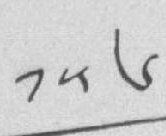༡༥༦
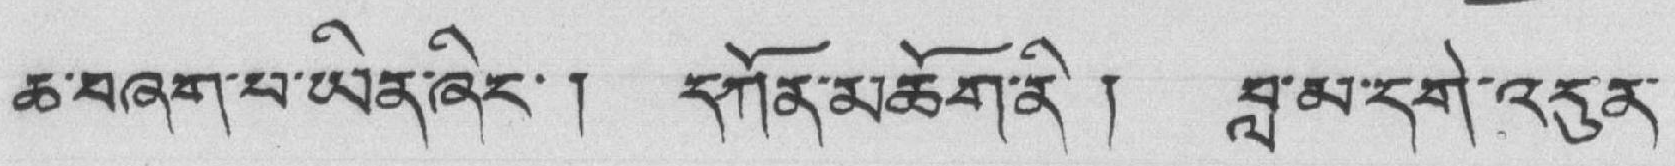ཆ་བཞག་པ་ཡིན་ཞིང་། དཀོན་མཆོག་ནི ། བླ་མ་དགེ་འདུན་
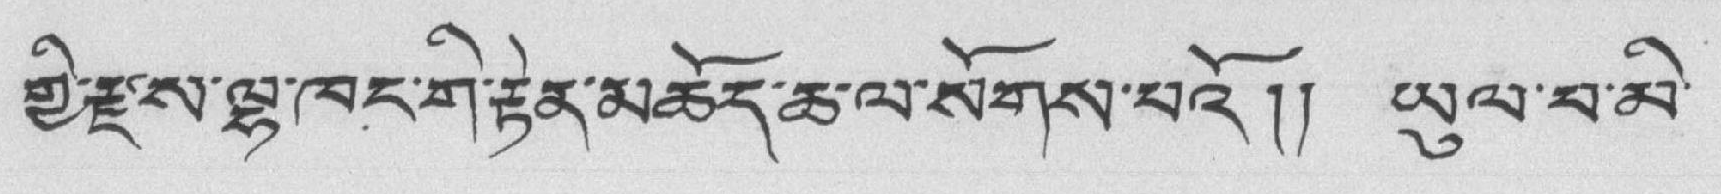གྱི་རྫས་ལྷ་ཁང་གི་རྟེན་མཆོད་ཆ་ལ་སོགས་པའོ།། ཡུལ་པ་མ་
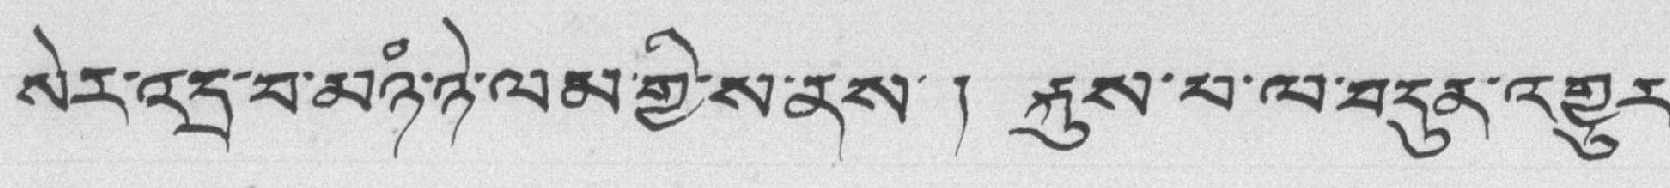སེར་འདྲ་བ་མཉཾ་ཉེ་ལམ་གྱི་ས་ནས་ ། རྐུས་པ་ལ་བདུན་འགྱུར་
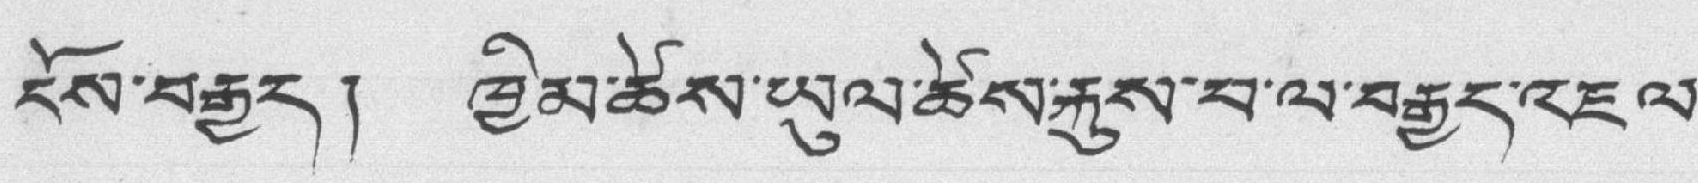ངོས་བརྒྱད། ཁྱིམ་ཚེས་ཡུལ་ཚེས་རྐུས་པ་ལ་བརྒྱད་འཇལ་
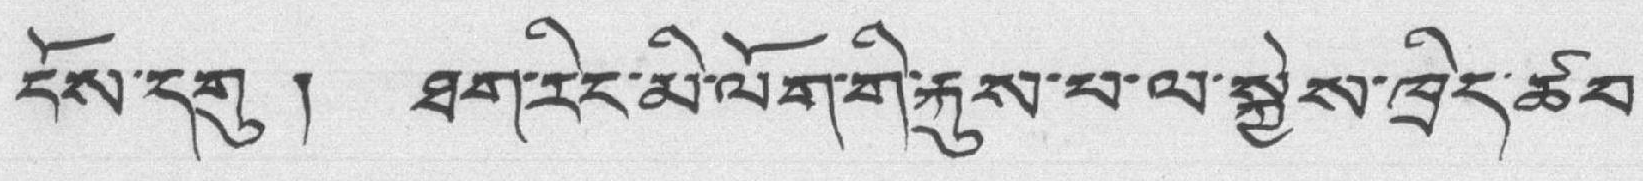ངོས་དགུ ། ཐག་རིང་མི་ལོག་གི་རྐུས་པ་ལ་སྐྱེས་ཁྲིད་ཚབ་
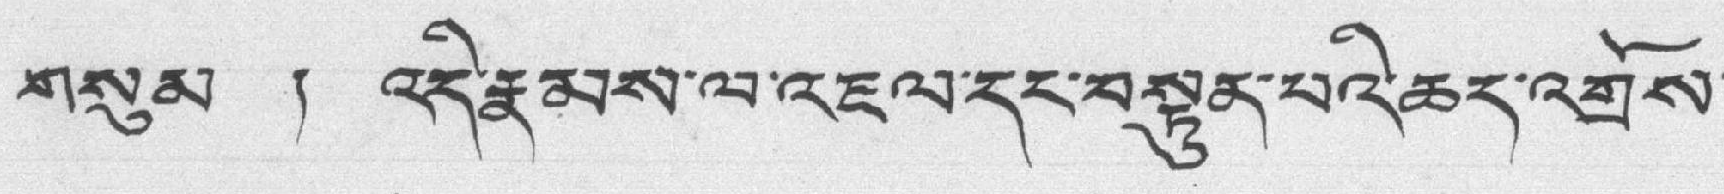གསུམ ། འདི་རྣམས་ལ་འཇལ་དང་བསྟུན་པའི་ཆད་འགྲོས་
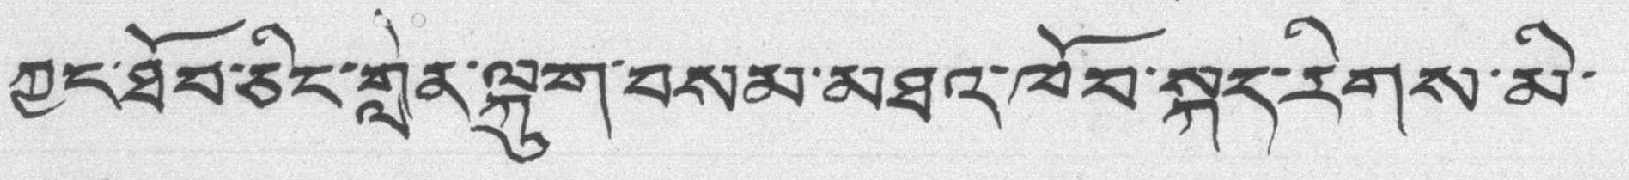ཀྱང་ཐོབ་ཅིང་གླེན་ལྐུག་བསམ་མཐའ་ཁོབ་སྐད་རིགས་མི་
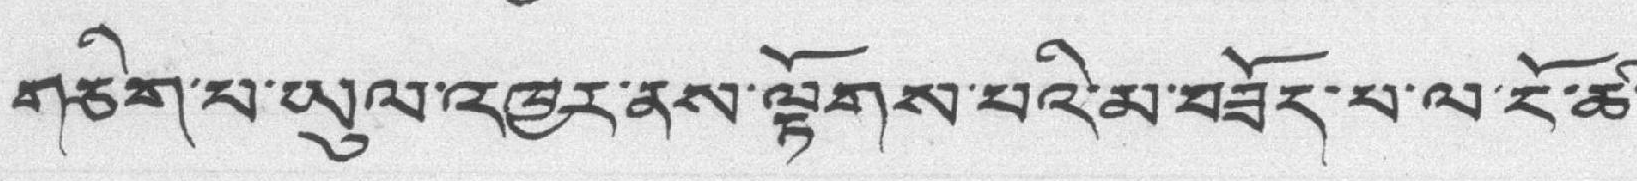གཅིག་པ་ཡུལ་འཁྱར་ནས་ལྟོགས་པའི་མ་བཟོད་པ་ལ་ངོ་ཚ་
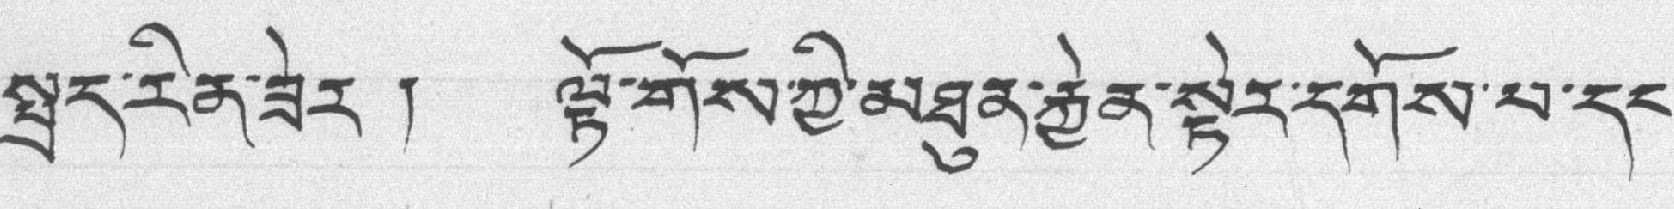སྤྲད་རིན་ཟེར ། ལྟོ་གོས་ཀྱི་མཐུན་རྐྱེན་སྟེར་དགོས་པ་དང་
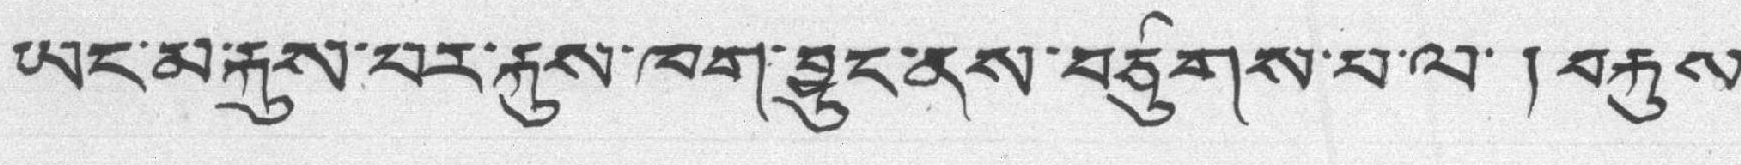ཡང་མ་རྐུས་པར་རྐུས་ཁག་བྱུང་ནས་བཙུགས་པ་ལ་ ། བརྐུས་
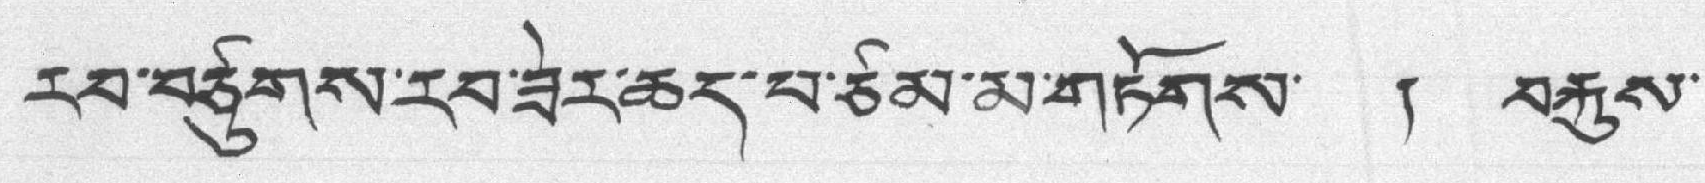རབ་བཙུགས་རབ་ཟེར་ཆད་པ་ཙམ་མ་གཏོགས་ ། བརྐུས་
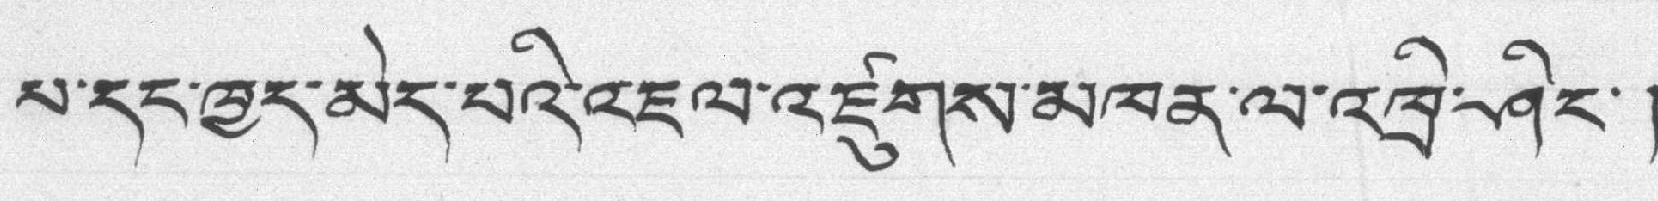པ་དང་ཁྱད་མེད་པའི་འཇལ་འཛུགས་མཁན་ལ་འཁྲི་ཤིང་།
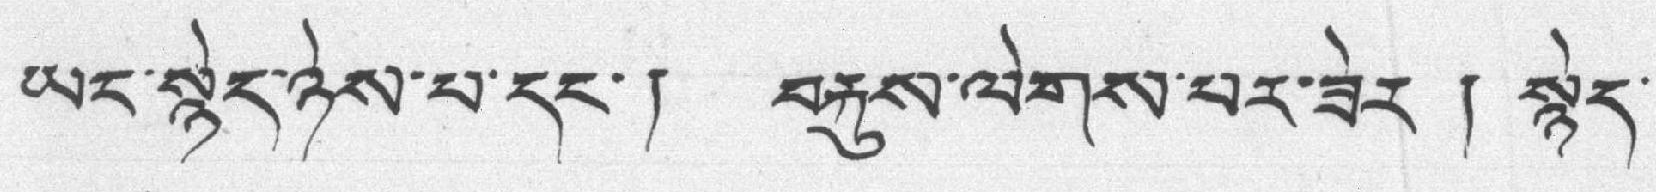ཡང་སྙེད་ཉེས་པ་དང་། བརྐུས་ལེགས་པར་ཟེར ། སྙེད་
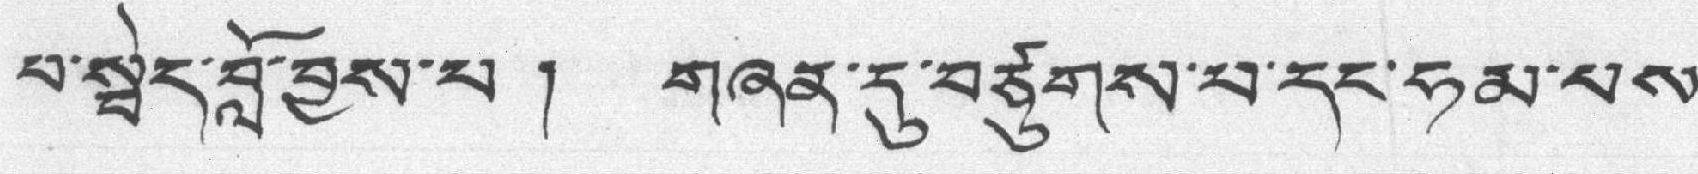པ་སྦེད་བློ་བྱས་པ ། གཞན་དུ་བཙུགས་པ་དང་ཧམ་པས་
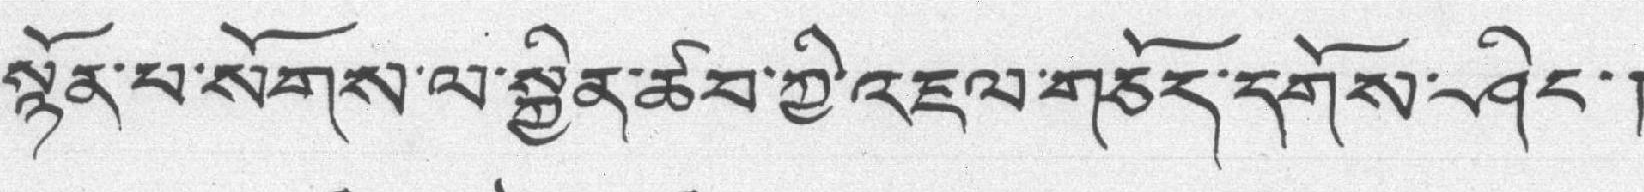སྙོན་པ་སོགས་ལ་སྐྱིན་ཚབ་ཀྱི་འཇལ་གཅོད་དགོས་ཤིང་།
